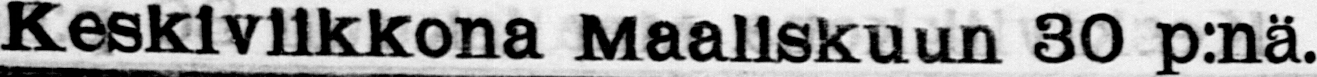Keskiviikkona 30 p:nä.
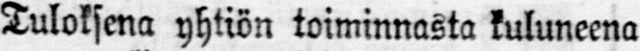Tuloksena yhtiön toiminnasta kuluneena
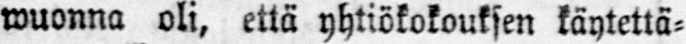wuonna oli, että yhtiökokouksen käytettä-
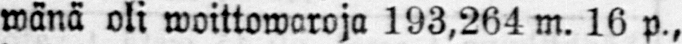wänä oli woittowaroja 193,264 m. 16 p.,
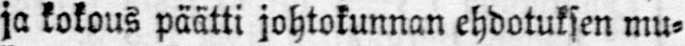ja kokous päätti johtokunnan ehdotuksen mu-
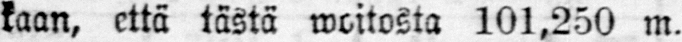kaan, että tästä woitosta 101,250 m.
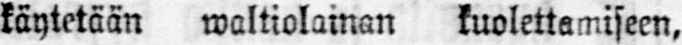käytetään waltiolainan kuolettamiseen,
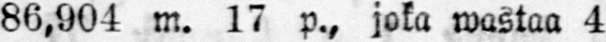86,904 m. 17 p., joka wustaa 4%.
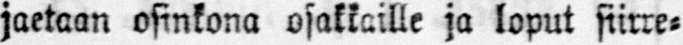jaetaan osinkona osakkaille ja loput siirre-
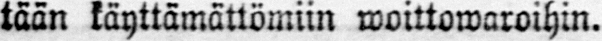tään käyttämättömiin woittowaroihin.
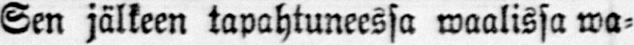Sen jälkeen tapahtuneessa waalissa wa-
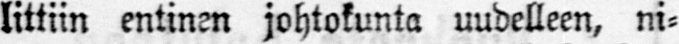littiin entinen johtokunta uudelleen, ni-
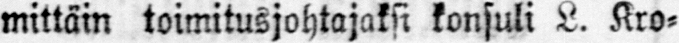mittäin toimitusjohtajaksi konsuli L. Kro-
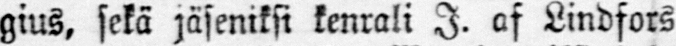gius. sekä jäseniksi kenrali I. af Lindfors
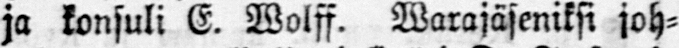ja konsuli E. Wolff. Warajäseniksi joh-
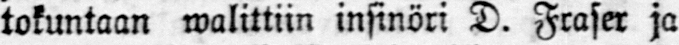tokuntaan walittiin insinöri D. Fraser ja
